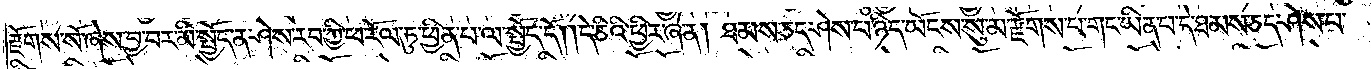རྫོགས་སོ་ཞེས་བྱ་བར་མི་སྤྱོད་ན་ཤེས་རབ་ཀྱི་ཕ་རོལ་ཏུ་ཕྱིན་པ་ལ་སྤྱོད་དོ། །དེ་ཅིའི་ཕྱིར་ཞེ་ན། ཐམས་ཅད་ཤེས་པ་ཉིད་ཡོངས་སུ་མ་རྫོགས་པ་གང་ཡིན་པ་དེ་ཐམས་ཅད་ཤེས་པ་
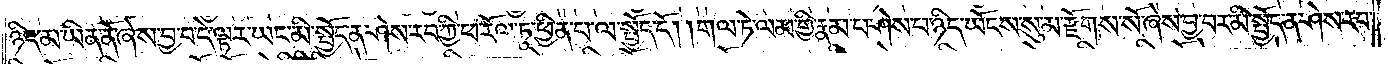ཉིད་མ་ཡིན་ནོ་ཞེས་བྱ་བ་དེ་ལྟར་ཡང་མི་སྤྱོད་ན་ཤེས་རབ་ཀྱི་ཕ་རོལ་ཏུ་ཕྱིན་པ་ལ་སྤྱོད་དོ། །གལ་ཏེ་ལམ་གྱི་རྣམ་པ་ཤེས་པ་ཉིད་ཡོངས་སུ་མ་རྫོགས་སོ་ཞེས་བྱ་བར་མི་སྤྱོད་ན་ཤེས་རབ་
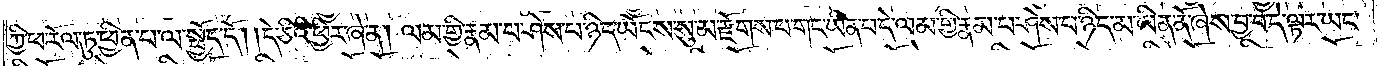ཀྱི་ཕ་རོལ་ཏུ་ཕྱིན་པ་ལ་སྤྱོད་དོ། །དེ་ཅིའི་ཕྱིར་ཞེ་ན། ལམ་གྱི་རྣམ་པ་ཤེས་པ་ཉིད་ཡོངས་སུ་མ་རྫོགས་པ་གང་ཡིན་པ་དེ་ལམ་གྱི་རྣམ་པ་ཤེས་པ་ཉིད་མ་ཡིན་ནོ་ཞེས་བྱ་བ་དེ་ལྟར་ཡང་
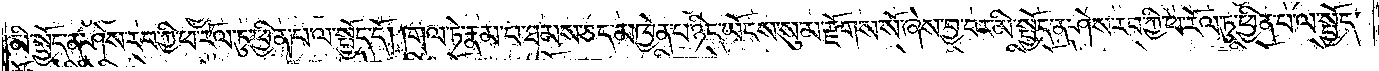མི་སྤྱོད་ན་ཤེས་རབ་ཀྱི་ཕ་རོལ་ཏུ་ཕྱིན་པ་ལ་སྤྱོད་དོ། །གལ་ཏེ་རྣམ་པ་ཐམས་ཅད་མཁྱེན་པ་ཉིད་ཡོངས་སུ་མ་རྫོགས་སོ་ཞེས་བྱ་བར་མི་སྤྱོད་ན་ཤེས་རབ་ཀྱི་ཕ་རོལ་ཏུ་ཕྱིན་པ་ལ་སྤྱོད་
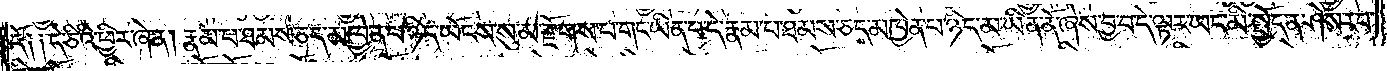དོ༑ ༑དེ་ཅིའི་ཕྱིར་ཞེ་ན། རྣམ་པ་ཐམས་ཅད་མཁྱེན་པ་ཉིད་ཡོངས་སུ་མ་རྫོགས་པ་གང་ཡིན་པ་དེ་རྣམ་པ་ཐམས་ཅད་མཁྱེན་པ་ཉིད་མ་ཡིན་ནོ་ཞེས་བྱ་བ་དེ་ལྟར་ཡང་མི་སྤྱོད་ན་ཤེས་རབ་
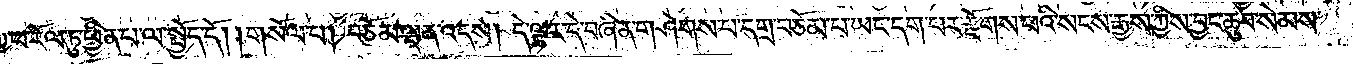ཀྱི་ཕ་རོལ་ཏུ་ཕྱིན་པ་ལ་སྤྱོད་དོ། །གསོལ་པ། བཅོམ་ལྡན་འདས། དེ་ལྟར་དེ་བཞིན་གཤེགས་པ་དགྲ་བཅོམ་པ་ཡང་དག་པར་རྫོགས་པའི་སངས་རྒྱས་ཀྱིས་བྱང་ཆུབ་སེམས་
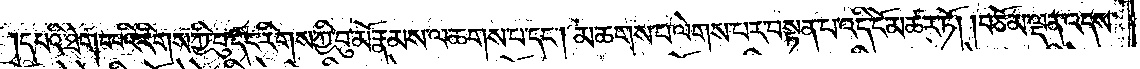དཔའི་ཐེག་པ་པའི་རིགས་ཀྱི་བུ་དང་རིགས་ཀྱི་བུ་མོ་རྣམས་ལ་ཆགས་པ་དང༌། མ་ཆགས་པ་ལེགས་པར་བསྟན་པ་འདི་ངོ་མཚར་ཏོ། །བཅོམ་ལྡན་འདས་
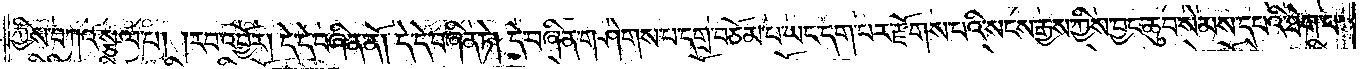ཀྱིས་བཀའ་སྩལ་པ། །རབ་འབྱོར། དེ་དེ་བཞིན་ནོ། །དེ་དེ་བཞིན་ཏེ། དེ་བཞིན་གཤེགས་པ་དགྲ་བཅོམ་པ་ཡང་དག་པར་རྫོགས་པའི་སངས་རྒྱས་ཀྱིས་བྱང་ཆུབ་སེམས་དཔའི་ཐེག་པ་
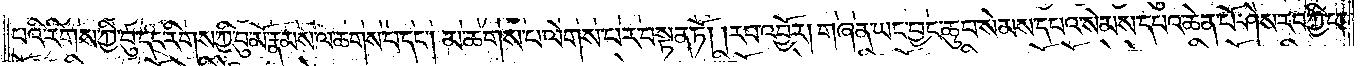པའི་རིགས་ཀྱི་བུ་དང་རིགས་ཀྱི་བུ་མོ་རྣམས་ལ་ཆགས་པ་དང༌། མ་ཆགས་པ་ལེགས་པར་བསྟན་ཏོ། །རབ་འབྱོར། གཞན་ཡང་བྱང་ཆུབ་སེམས་དཔའ་སེམས་དཔའ་ཆེན་པོ་ཤེས་རབ་ཀྱི་ཕ་
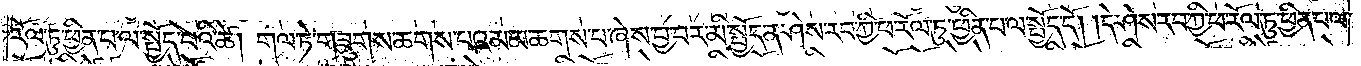རོལ་ཏུ་ཕྱིན་པ་ལ་སྤྱོད་པའི་ཚེ། གལ་ཏེ་གཟུགས་ཆགས་པའམ་མ་ཆགས་པ་ཞེས་བྱ་བར་མི་སྤྱོད་ན་ཤེས་རབ་ཀྱི་ཕ་རོལ་ཏུ་ཕྱིན་པ་ལ་སྤྱོད་དོ། །དེ་ཤེས་རབ་ཀྱི་ཕ་རོལ་ཏུ་ཕྱིན་པ་ལ་
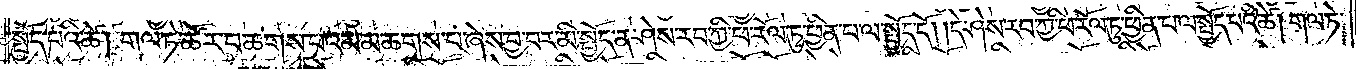སྤྱོད་པའི་ཚེ། གལ་ཏེ་ཚོར་བ་ཆགས་པའམ་མ་ཆགས་པ་ཞེས་བྱ་བར་མི་སྤྱོད་ན་ཤེས་རབ་ཀྱི་ཕ་རོལ་ཏུ་ཕྱིན་པ་ལ་སྤྱོད་དོ། །དེ་ཤེས་རབ་ཀྱི་ཕ་རོལ་ཏུ་ཕྱིན་པ་ལ་སྤྱོད་པའི་ཚེ། གལ་ཏེ་
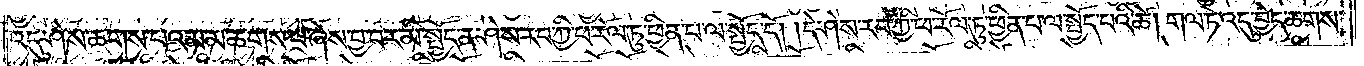འདུ་ཤེས་ཆགས་པའམ་མ་ཆགས་པ་ཞེས་བྱ་བར་མི་སྤྱོད་ན་ཤེས་རབ་ཀྱི་ཕ་རོལ་ཏུ་ཕྱིན་པ་ལ་སྤྱོད་དོ། །དེ་ཤེས་རབ་ཀྱི་ཕ་རོལ་ཏུ་ཕྱིན་པ་ལ་སྤྱོད་པའི་ཚེ། གལ་ཏེ་འདུ་བྱེད་ཆགས་
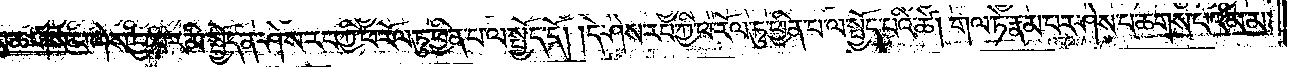པའམ་མ་ཆགས་པ་ཞེས་བྱ་བར་མི་སྤྱོད་ན་ཤེས་རབ་ཀྱི་ཕ་རོལ་ཏུ་ཕྱིན་པ་ལ་སྤྱོད་དོ། །དེ་ཤེས་རབ་ཀྱི་ཕ་རོལ་ཏུ་ཕྱིན་པ་ལ་སྤྱོད་པའི་ཚེ། གལ་ཏེ་རྣམ་པར་ཤེས་པ་ཆགས་པའམ་མ་
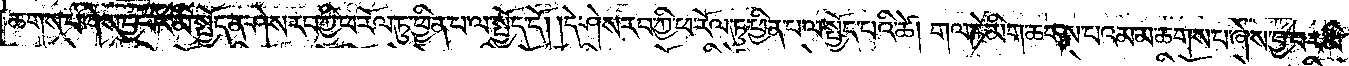ཆགས་པ་ཞེས་བྱ་བར་མི་སྤྱོད་ན་ཤེས་རབ་ཀྱི་ཕ་རོལ་ཏུ་ཕྱིན་པ་ལ་སྤྱོད་དོ། །དེ་ཤེས་རབ་ཀྱི་ཕ་རོལ་ཏུ་ཕྱིན་པ་ལ་སྤྱོད་པའི་ཚེ། གལ་ཏེ་མིག་ཆགས་པའམ་མ་ཆགས་པ་ཞེས་བྱ་བར་མི་
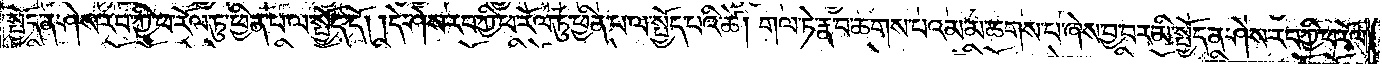སྤྱོད་ན་ཤེས་རབ་ཀྱི་ཕ་རོལ་ཏུ་ཕྱིན་པ་ལ་སྤྱོད་དོ། །དེ་ཤེས་རབ་ཀྱི་ཕ་རོལ་ཏུ་ཕྱིན་པ་ལ་སྤྱོད་པའི་ཚེ། གལ་ཏེ་རྣ་བ་ཆགས་པའམ་མ་ཆགས་པ་ཞེས་བྱ་བར་མི་སྤྱོད་ན་ཤེས་རབ་ཀྱི་ཕ་རོལ་
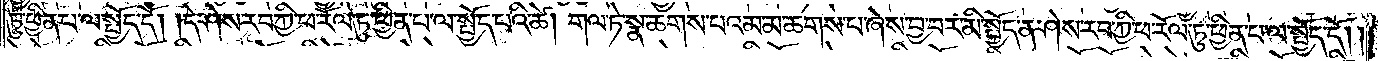ཏུ་ཕྱིན་པ་ལ་སྤྱོད་དོ། །དེ་ཤེས་རབ་ཀྱི་ཕ་རོལ་ཏུ་ཕྱིན་པ་ལ་སྤྱོད་པའི་ཚེ། གལ་ཏེ་སྣ་ཆགས་པའམ་མ་ཆགས་པ་ཞེས་བྱ་བར་མི་སྤྱོད་ན་ཤེས་རབ་ཀྱི་ཕ་རོལ་ཏུ་ཕྱིན་པ་ལ་སྤྱོད་དོ། །
